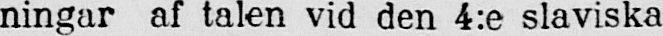ningar af talen vid den 4:e slaviska
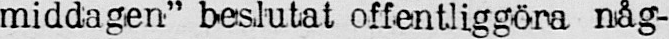middagen” beslutat offentliggöra någ-
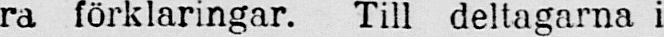ra förklaringar. Till deltagarna i
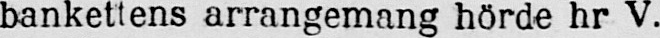bankettens arrangemang hörde hr V.
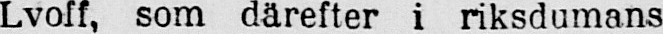Lvoff, som därefter i riksdumans
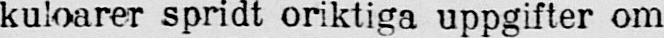kuloarer spridt oriktiga uppgifter om
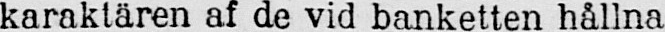karaktären af de vid banketten hållna
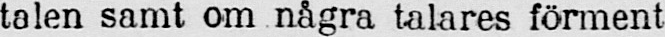talen samt om några talares förment
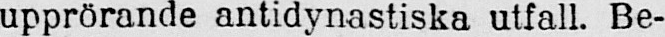upprörande antidynastiska utfall. Be-
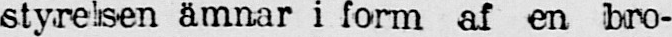styrelsen ämnar i form af en bro-
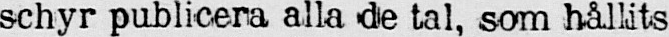schyr publicera alla de tal, som hållits
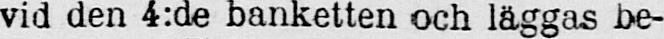vid den 4:de banketten och läggas be-
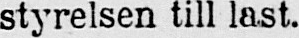styrelsen till last.
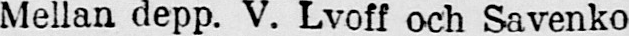Mellan depp. V. Lvoff och Savenko
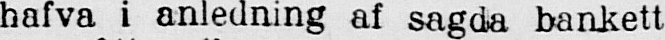hafva i anledning af sagda bankett
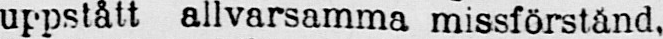uppstått allvarsamma missförstånd,
